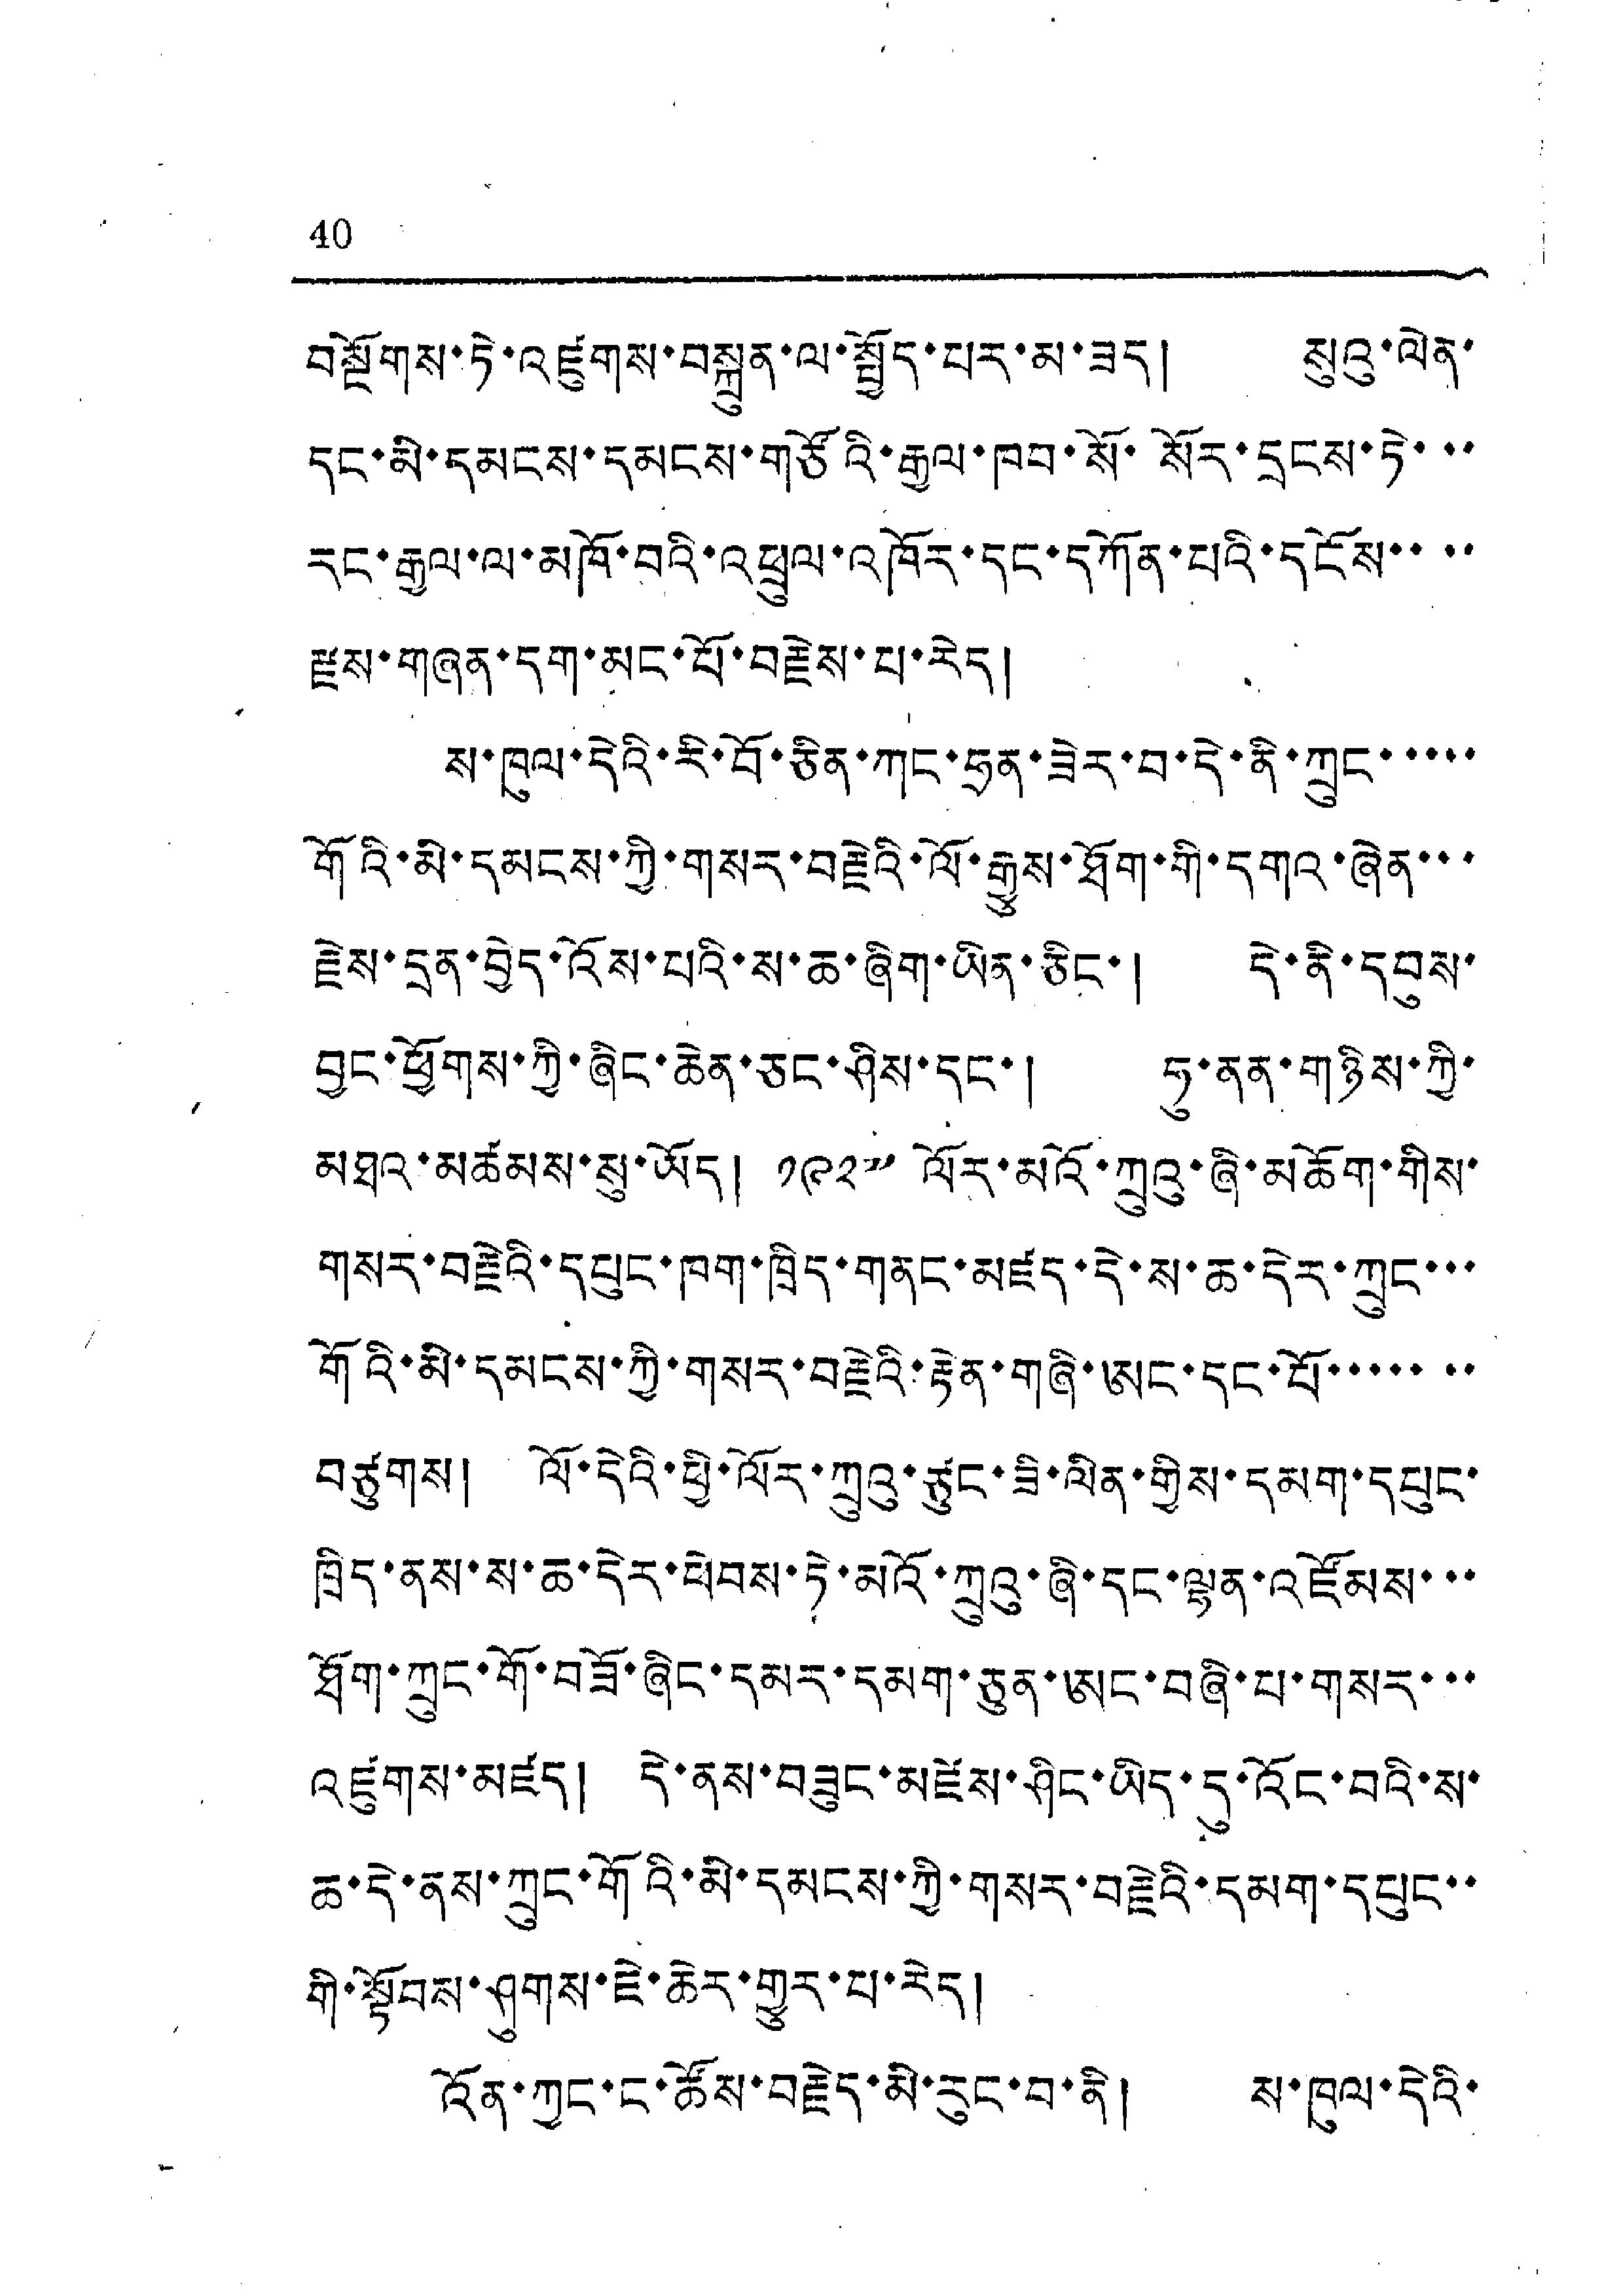40
བསྔོགས་ཏེ་འཛུགས་བསྐྲུན་ལ་སྤྱོད་པར་མ་ཟད། སུའུ་ལེན་
དང་མི་དམངས་དམངས་གཙོའི་རྒྱལ་ཁབ་སོ་སོར་དྲངས་ཏེ་་་་
རང་རྒྱལ་ལ་མཁོ་བའི་འཕྲུལ་འཁོར་དང་དཀོན་པའི་དངོས་་་་
རྫས་གཞན་དག་མང་པོ་བརྗེས་པ་རེད།
ས་ཁུལ་དེའི་རི་བོ་ཅིན་ཀང་ཧྲན་ཟེར་བ་དེ་ནི་ཀྲུང་་་་་
གོའི་མི་དམངས་ཀྱི་གསར་བརྗེའི་ལོ་རྒྱུས་ཐོག་གི་དགའ་ཞེན་་་
རྗེས་དྲན་བྱེད་འོས་པའི་ས་ཆ་ཞིག་ཡིན་ཅིང་། དེ་ནི་དབུས་
བྱང་ཕྱོགས་ཀྱི་ཞིང་ཆེན་ཅང་ཤིས་དང་། ཧུ་ནན་གཉིས་ཀྱི་
མཐའ་མཚམས་སུ་ཡོད། ༡༩༢༧ ལོར་མའོ་ཀྲུའུ་ཞི་མཆོག་གིས་
གསར་བརྗེའི་དཔུང་ཁག་ཁྲིད་གནང་མཛད་དེ་ས་ཆ་དེར་ཀྲུང་་་
གོའི་མི་དམངས་ཀྱི་གསར་བརྗེའི་རྟེན་གཞི་ཨང་དང་པོ་་་་་་་
བཙུགས། ལོ་དེའི་ཕྱི་ལོར་ཀྲུའུ་ཙུང་ཟི་ལིན་གྱིས་དམག་དཔུང་
ཁྲིད་ནས་ས་ཆ་དེར་ཕེབས་ཏེ་མའོ་ཀྲུའུ་ཞི་དང་ལྷན་འཛོམས་་་
ཐོག་ཀྲུང་གོ་བཟོ་ཞིང་དམར་དམག་ཅུན་ཨང་བཞི་པ་གསར་་་
འཛུགས་མཛད། དེ་ནས་བཟུང་མཛེས་ཤིང་ཡིད་དུ་འོང་བའི་ས་
ཆ་དེ་ནས་ཀྲུང་གོའི་མི་དམངས་ཀྱི་གསར་བརྗེའི་དམག་དཔུང་་
གི་སྟོབས་ཤུགས་ཇེ་ཆེར་གྱུར་པ་རེད།
འོན་ཀྱང་ང་ཚོས་བརྗེད་མི་རུང་བ་ནི། ས་ཁུལ་དེའི་
